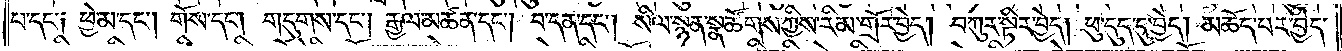པ་དང༌། ཕྱེ་མ་དང༌། གོས་དང༌། གདུགས་དང༌། རྒྱལ་མཚན་དང༌། བ་དན་དང༌། སིལ་སྙན་སྣ་ཚོགས་ཀྱིས་རིམ་གྲོར་བྱེད། བཀུར་སྟིར་བྱེད། ཕུ་དུད་དུ་བྱེད། མཆོད་པར་བྱེད་
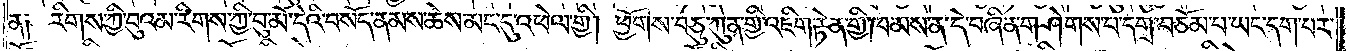ན༑ རིགས་ཀྱི་བུའམ་རིགས་ཀྱི་བུ་མོ་དེའི་བསོད་ནམས་ཆེས་མང་དུ་འཕེལ་གྱི། ཕྱོགས་བཅུ་ཀུན་གྱི་འཇིག་རྟེན་གྱི་ཁམས་ན་དེ་བཞིན་གཤེགས་པ་དགྲ་བཅོམ་པ་ཡང་དག་པར་
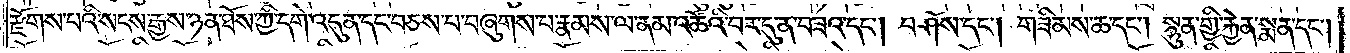རྫོགས་པའི་སངས་རྒྱས་ཉན་ཐོས་ཀྱི་དགེ་འདུན་དང་བཅས་པ་བཞུགས་པ་རྣམས་ལ་ནམ་འཚོའི་བར་དུ་ན་བཟའ་དང༌། བཤོས་དང༌། གཟིམས་ཆ་དང༌། སྙུན་གྱི་རྐྱེན་སྨན་དང༌།
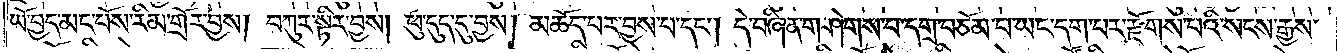ཡོ་བྱད་མང་པོས་རིམ་གྲོར་བྱས། བཀུར་སྟིར་བྱས། ཕུ་དུད་དུ་བྱས། མཆོད་པར་བྱས་པ་དང༌། དེ་བཞིན་གཤེགས་པ་དགྲ་བཅོམ་པ་ཡང་དག་པར་རྫོགས་པའི་སངས་རྒྱས་
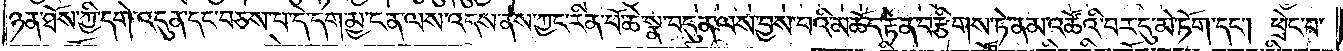ཉན་ཐོས་ཀྱི་དགེ་འདུན་དང་བཅས་པ་དེ་དག་མྱ་ངན་ལས་འདས་ནས་ཀྱང་རིན་པོ་ཆེ་སྣ་བདུན་ལས་བྱས་པའི་མཆོད་རྟེན་བརྩིགས་ཏེ་ནམ་འཚོའི་བར་དུ་མེ་ཏོག་དང༌། ཕྲེང་བ་
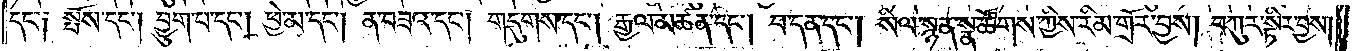དང༌། སྤོས་དང༌། བྱུག་པ་དང༌། ཕྱེ་མ་དང༌། ན་བཟའ་དང༌། གདུགས་དང༌། རྒྱལ་མཚན་དང༌། བ་དན་དང༌། སིལ་སྙན་སྣ་ཚོགས་ཀྱིས་རིམ་གྲོར་བྱས། བཀུར་སྟིར་བྱས།
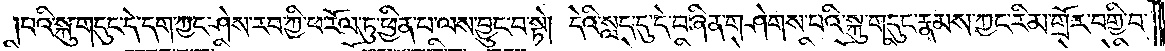པའི་སྐུ་གདུང་དེ་དག་ཀྱང་ཤེས་རབ་ཀྱི་ཕ་རོལ་ཏུ་ཕྱིན་པ་ལས་བྱུང་བ་སྟེ། དེའི་སླད་དུ་དེ་བཞིན་གཤེགས་པའི་སྐུ་གདུང་རྣམས་ཀྱང་རིམ་གྲོར་བགྱི་བ་
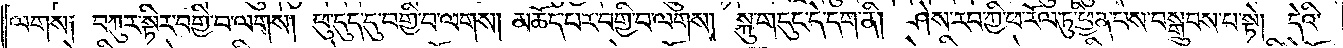ལགས། བཀུར་སྟིར་བགྱི་བ་ལགས། ཕུ་དུད་དུ་བགྱི་བ་ལགས། མཆོད་པར་བགྱི་བ་ལགས། སྐུ་གདུང་དེ་དག་ནི། ཤེས་རབ་ཀྱི་ཕ་རོལ་ཏུ་ཕྱིན་པས་བསྒྲུབས་པ་སྟེ། དེའི་
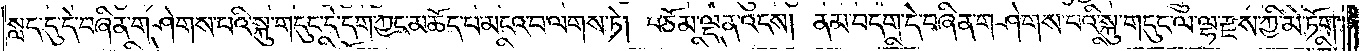སླད་དུ་དེ་བཞིན་གཤེགས་པའི་སྐུ་གདུང་དེ་དག་ཀྱང་མཆོད་པ་མངའ་བ་ལགས་ཏེ། བཅོམ་ལྡན་འདས། ནམ་བདག་དེ་བཞིན་གཤེགས་པའི་སྐུ་གདུང་ལ་ལྷ་རྫས་ཀྱི་མེ་ཏོག་
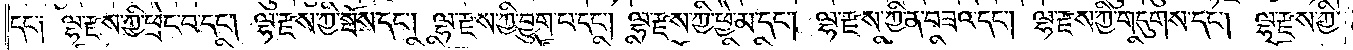དང༌། ལྷ་རྫས་ཀྱི་ཕྲེང་བ་དང༌། ལྷ་རྫས་ཀྱི་སྤོས་དང༌། ལྷ་རྫས་ཀྱི་བྱུག་པ་དང༌། ལྷ་རྫས་ཀྱི་ཕྱེ་མ་དང༌། ལྷ་རྫས་ཀྱི་ན་བཟའ་དང༌། ལྷ་རྫས་ཀྱི་གདུགས་དང༌། ལྷ་རྫས་ཀྱི་
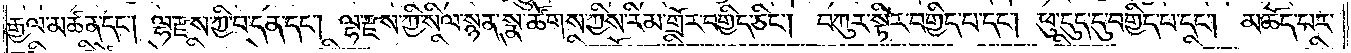རྒྱལ་མཚན་དང༌། ལྷ་རྫས་ཀྱི་བ་དན་དང༌། ལྷ་རྫས་ཀྱི་སིལ་སྙན་སྣ་ཚོགས་ཀྱིས་རིམ་གྲོར་བགྱིད་ཅིང༌། བཀུར་སྟིར་བགྱིད་པ་དང༌། ཕུ་དུད་དུ་བགྱིད་པ་དང༌། མཆོད་པར་
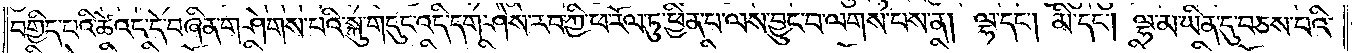བགྱིད་པའི་ཚེའང་དེ་བཞིན་གཤེགས་པའི་སྐུ་གདུང་འདི་དག་ཤེས་རབ་ཀྱི་ཕ་རོལ་ཏུ་ཕྱིན་པ་ལས་ཕྱུང་བ་ལགས་པས་ན། ལྷ་དང༌། མི་དང༌། ལྷ་མ་ཡིན་དུ་བཅས་པའི་
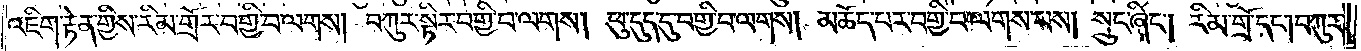འཇིག་རྟེན་གྱིས་རིམ་གྲོར་བགྱི་བ་ལགས། བཀུར་སྟིར་བགྱི་བ་ལགས། ཕུ་དུད་དུ་བགྱི་བ་ལགས། མཆོད་པར་བགྱི་བ་ལགས་པས། སྲུང་ཞིང༌། རིམ་གྲོ་དང༌། བཀུར་
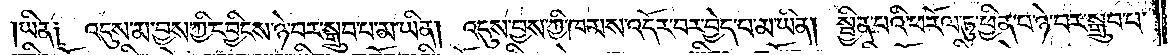ཡིན། འདུས་མ་བྱས་ཀྱི་དབྱིངས་ཉེ་བར་སྒྲུབ་པ་མ་ཡིན། འདུས་བྱས་ཀྱི་ཁམས་འདོར་བར་བྱེད་པ་མ་ཡིན། སྦྱིན་པའི་ཕ་རོལ་ཏུ་ཕྱིན་པ་ཉེ་བར་སྒྲུབ་པ་
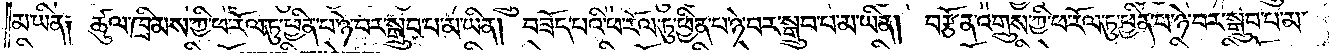མ་ཡིན༑ ཚུལ་ཁྲིམས་ཀྱི་ཕ་རོལ་ཏུ་ཕྱིན་པ་ཉེ་བར་སྒྲུབ་པ་མ་ཡིན། བཟོད་པའི་ཕ་རོལ་ཏུ་ཕྱིན་པ་ཉེ་བར་སྒྲུབ་པ་མ་ཡིན། བརྩོན་འགྲུས་ཀྱི་ཕ་རོལ་ཏུ་ཕྱིན་པ་ཉེ་བར་སྒྲུབ་པ་མ་
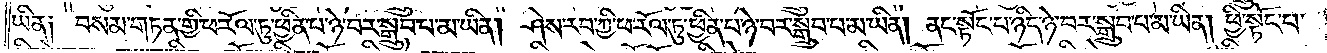ཡིན༑ བསམ་གཏན་གྱི་ཕ་རོལ་ཏུ་ཕྱིན་པ་ཉེ་བར་སྒྲུབ་པ་མ་ཡིན། ཤེས་རབ་ཀྱི་ཕ་རོལ་ཏུ་ཕྱིན་པ་ཉེ་བར་སྒྲུབ་པ་མ་ཡིན། ནང་སྟོང་པ་ཉིད་ཉེ་བར་སྒྲུབ་པ་མ་ཡིན། ཕྱི་སྟོང་པ་
